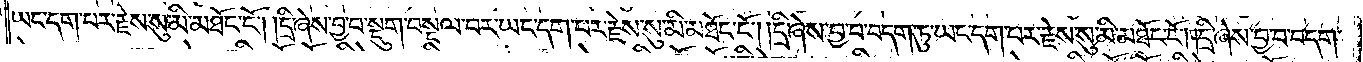ཡང་དག་པར་རྗེས་སུ་མི་མཐོང་ངོ༌། །དྲི་ཞེས་བྱ་བ་སྡུག་བསྔལ་བར་ཡང་དག་པར་རྗེས་སུ་མི་མཐོང་ངོ༌། །དྲི་ཞེས་བྱ་བ་བདག་ཏུ་ཡང་དག་པར་རྗེས་སུ་མི་མཐོང་ངོ༌། །དྲི་ཞེས་བྱ་བ་བདག་
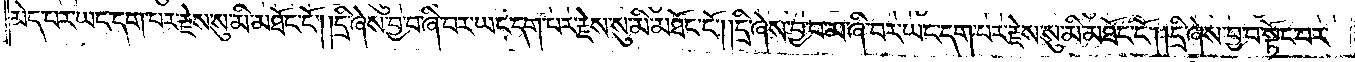མེད་པར་ཡང་དག་པར་རྗེས་སུ་མི་མཐོང་ངོ༌། །དྲི་ཞེས་བྱ་བ་ཞི་བར་ཡང་དག་པར་རྗེས་སུ་མི་མཐོང་ངོ༌། །དྲི་ཞེས་བྱ་བ་མ་ཞི་བར་ཡང་དག་པར་རྗེས་སུ་མི་མཐོང་ངོ༌། །དྲི་ཞེས་བྱ་བ་སྟོང་པར་
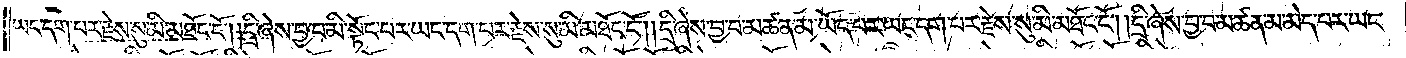ཡང་དག་པར་རྗེས་སུ་མི་མཐོང་ངོ༌། །དྲི་ཞེས་བྱ་བ་མི་སྟོང་པར་ཡང་དག་པར་རྗེས་སུ་མི་མཐོང་ངོ༌། །དྲི་ཞེས་བྱ་བ་མཚན་མ་ཡོད་པར་ཡང་དག་པར་རྗེས་སུ་མི་མཐོང་ངོ༌། །དྲི་ཞེས་བྱ་བ་མཚན་མ་མེད་པར་ཡང་
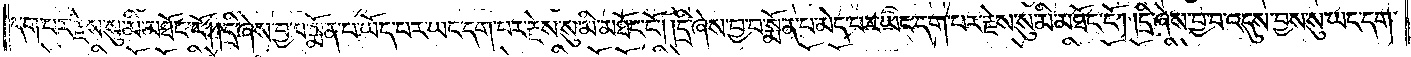དག་པར་རྗེས་སུ་མི་མཐོང་ངོ༌། །དྲི་ཞེས་བྱ་བ་སྨོན་པ་ཡོད་པར་ཡང་དག་པར་རྗེས་སུ་མི་མཐོང་ངོ༌། །དྲི་ཞེས་བྱ་བ་སྨོན་པ་མེད་པར་ཡང་དག་པར་རྗེས་སུ་མི་མཐོང་ངོ༌། །དྲི་ཞེས་བྱ་བ་འདུས་བྱས་སུ་ཡང་དག་
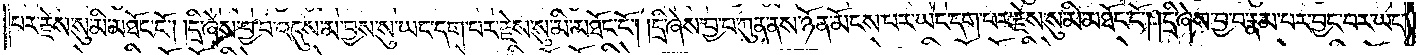པར་རྗེས་སུ་མི་མཐོང་ངོ༌། །དྲི་ཞེས་བྱ་བ་འདུས་མ་བྱས་སུ་ཡང་དག་པར་རྗེས་སུ་མི་མཐོང་ངོ༌། །དྲི་ཞེས་བྱ་བ་ཀུན་ནས་ཉོན་མོངས་པར་ཡང་དག་པར་རྗེས་སུ་མི་མཐོང་ངོ༌། །དྲི་ཞེས་བྱ་བ་རྣམ་པར་བྱང་བར་ཡང་
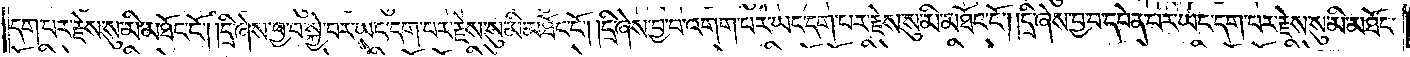དག་པར་རྗེས་སུ་མི་མཐོང་ངོ༌། །དྲི་ཞེས་བྱ་བ་སྐྱེ་བར་ཡང་དག་པར་རྗེས་སུ་མི་མཐོང་ངོ༌། །དྲི་ཞེས་བྱ་བ་འགག་པར་ཡང་དག་པར་རྗེས་སུ་མི་མཐོང་ངོ༌། །དྲི་ཞེས་བྱ་བ་དབེན་པར་ཡང་དག་པར་རྗེས་སུ་མི་མཐོང་
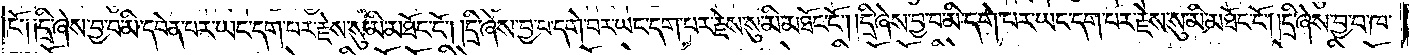ངོ༑ ༑དྲི་ཞེས་བྱ་བ་མི་དབེན་པར་ཡང་དག་པར་རྗེས་སུ་མི་མཐོང་ངོ༌། །དྲི་ཞེས་བྱ་བ་དགེ་བར་ཡང་དག་པར་རྗེས་སུ་མི་མཐོང་ངོ༌། །དྲི་ཞེས་བྱ་བ་མི་དགེ་པར་ཡང་དག་པར་རྗེས་སུ་མི་མཐོང་ངོ༌། །དྲི་ཞེས་བྱ་བ་ཁ་
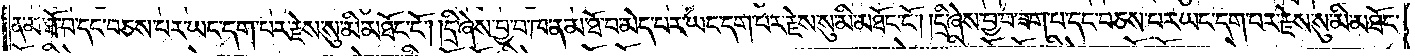ན་མ་ཐོ་བ་དང་བཅས་པར་ཡང་དག་པར་རྗེས་སུ་མི་མཐོང་ངོ༌། །དྲི་ཞེས་བྱ་བ་ཁ་ན་མ་ཐོ་བ་མེད་པར་ཡང་དག་པར་རྗེས་སུ་མི་མཐོང་ངོ༌། །དྲི་ཞེས་བྱ་བ་ཟག་པ་དང་བཅས་པར་ཡང་དག་པར་རྗེས་སུ་མི་མཐོང་
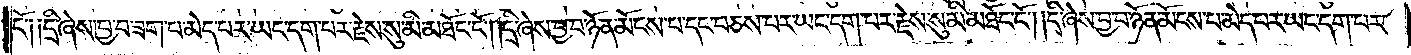ངོ༑ ༑དྲི་ཞེས་བྱ་བ་ཟག་པ་མེད་པར་ཡང་དག་པར་རྗེས་སུ་མི་མཐོང་ངོ༌། །དྲི་ཞེས་བྱ་བ་ཉོན་མོངས་པ་དང་བཅས་པར་ཡང་དག་པར་རྗེས་སུ་མི་མཐོང་ངོ༌། །དི་ཞེས་བྱ་བ་ཉོན་མོངས་པ་མེད་པར་ཡང་དག་པར་
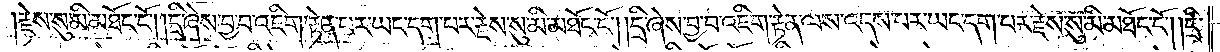རྗེས་སུ་མི་མཐོང་ངོ༌། །དྲི་ཞེས་བྱ་བ་འཇིག་རྟེན་པར་ཡང་དག་པར་རྗེས་སུ་མི་མཐོང་ངོ༌། །དྲི་ཞེས་བྱ་བ་འཇིག་རྟེན་ལས་འདས་པར་ཡང་དག་པར་རྗེས་སུ་མི་མཐོང་ངོ༌། །དྲི་
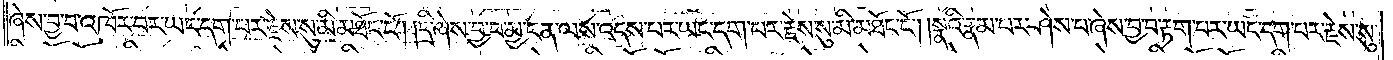ཞེས་བྱ་བ་འཁོར་བར་ཡང་དག་པར་རྗེས་སུ་མི་མཐོང་ངོ༌། །དྲི་ཞེས་བྱ་བ་མྱ་ངན་ལས་འདས་པར་ཡང་དག་པར་རྗེས་སུ་མི་མཐོང་ངོ༌། །སྣའི་རྣམ་པར་ཤེས་པ་ཞེས་བྱ་བ་རྟག་པར་ཡང་དག་པར་རྗེས་སུ་
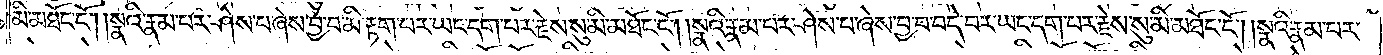མི་མཐོང་ངོ༌། །སྣའི་རྣམ་པར་ཤེས་པ་ཞེས་བྱ་བ་མི་རྟག་པར་ཡང་དག་པར་རྗེས་སུ་མི་མཐོང་ངོ༌། །སྣའི་རྣམ་པར་ཤེས་པ་ཞེས་བྱ་བ་བདེ་བར་ཡང་དག་པར་རྗེས་སུ་མི་མཐོང་ངོ༌། །སྣའི་རྣམ་པར་
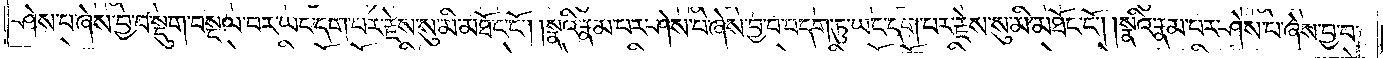ཤེས་པ་ཞེས་བྱ་བ་སྡུག་བསྔལ་བར་ཡང་དག་པར་རྗེས་སུ་མི་མཐོང་ངོ༌། །སྣའི་རྣམ་པར་ཤེས་པ་ཞེས་བྱ་བ་བདག་ཏུ་ཡང་དག་པར་རྗེས་སུ་མི་མཐོང་ངོ༌། །སྣའི་རྣམ་པར་ཤེས་པ་ཞེས་བྱ་བ་
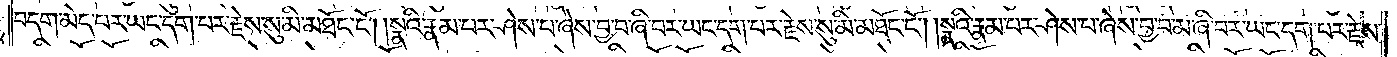བདག་མེད་པར་ཡང་དག་པར་རྗེས་སུ་མི་མཐོང་ངོ༌། །སྣའི་རྣམ་པར་ཤེས་པ་ཞེས་བྱ་བ་ཞི་བར་ཡང་དག་པར་རྗེས་སུ་མི་མཐོང་ངོ༌། །སྣའི་རྣམ་པར་ཤེས་པ་ཞེས་བྱ་བ་མ་ཞི་བར་ཡང་དག་པར་རྗེས་
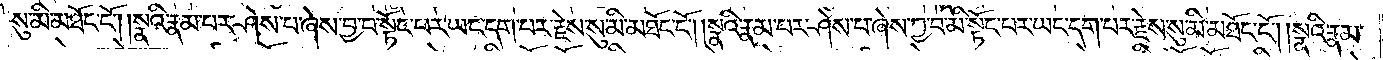སུ་མི་མཐོང་ངོ༌། །སྣའི་རྣམ་པར་ཤེས་པ་ཞེས་བྱ་བ་སྟོང་པར་ཡང་དག་པར་རྗེས་སུ་མི་མཐོང་ངོ༌། །སྣའི་རྣམ་པར་ཤེས་པ་ཞེས་བྱ་བ་མི་སྟོང་པར་ཡང་དག་པར་རྗེས་སུ་མི་མཐོང་ངོ༌། །སྣའི་རྣམ་
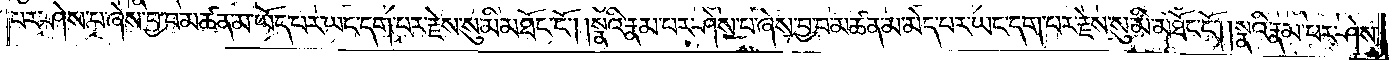པར་ཤེས་པ་ཞེས་བྱ་བ་མཚན་མ་ཡོད་པར་ཡང་དག་པར་རྗེས་སུ་མི་མཐོང་ངོ༌། །སྣའི་རྣམ་པར་ཤེས་པ་ཞེས་བྱ་བ་མཚན་མ་མེད་པར་ཡང་དག་པར་རྗེས་སུ་མི་མཐོང་ངོ༌། །སྣའི་རྣམ་པར་ཤེས་
